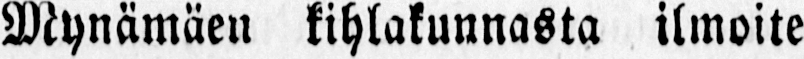Mynämäen kihlakunnasta ilmoite
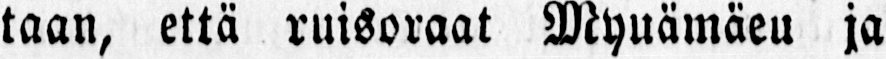taan, että ruisoraat Myuämäeu ja
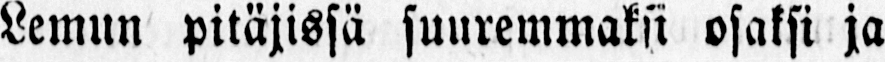Lemun pitäjissä suuremmaksi osaksi ja
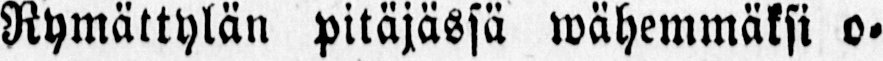Rymättylän pitäjässä wähemmäksi o-
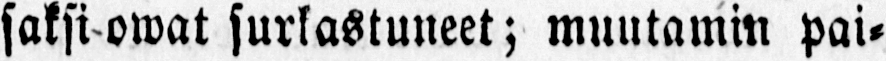saksi owat surkastuneet; muutamin pai-
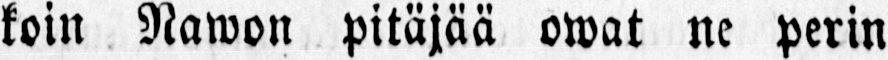koin Nawon pitäjää owat ne perin
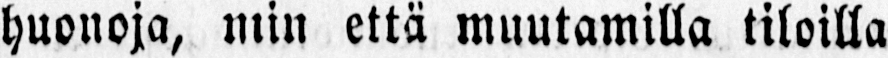huonoja, niin että muutamilla tiloilla
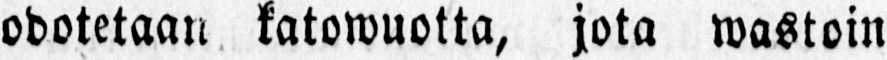odotetaan katowuotta, jota wastoin
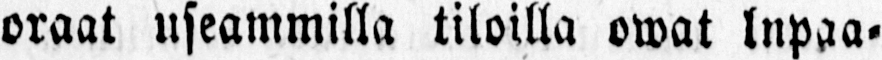oraat useammilla tiloilla owat lnpaa-
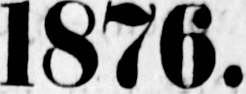1876.
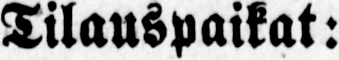Tilauspaikat:
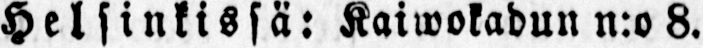Helsinkissä: Kaiwokadun n:o 8.
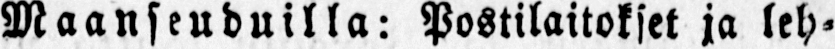Maanseuduilla: Postilaitokset ja leh-
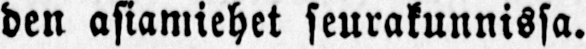den asiamiehet seurakunnissa.
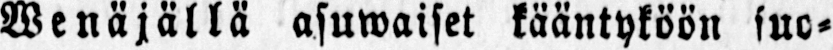Wenäjällä asuwaiset kääntyköön suo-
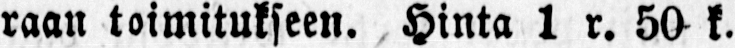raan toimitukseen. Hinta 1 r. 50 k.
